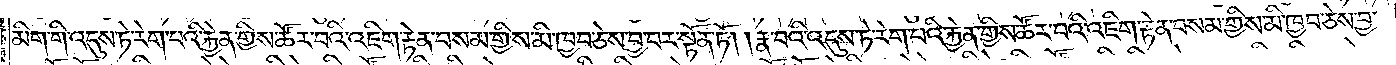མིག་གི་འདུས་ཏེ་རེག་པའི་རྐྱེན་གྱིས་ཚོར་བའི་འཇིག་རྟེན་བསམ་གྱིས་མི་ཁྱབ་ཅེས་བྱ་བར་སྟོན་ཏོ། །རྣ་བའི་འདུས་ཏེ་རེག་པའི་རྐྱེན་གྱིས་ཚོར་བའི་འཇིག་རྟེན་བསམ་གྱིས་མི་ཁྱབ་ཅེས་བྱ་
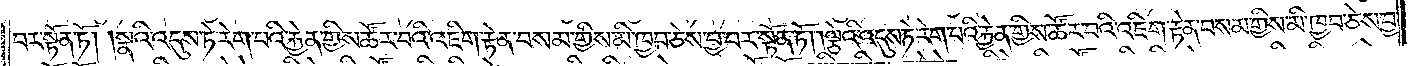བར་སྟོན་ཏོ། །སྣའི་འདུས་ཏེ་རེག་པའི་རྐྱེན་གྱིས་ཚོར་བའི་འཇིག་རྟེན་བསམ་གྱིས་མི་ཁྱབ་ཅེས་བྱ་བར་སྟོན་ཏོ། །ལྕེའི་འདུས་ཏེ་རེག་པའི་རྐྱེན་གྱིས་ཚོར་བའི་འཇིག་རྟེན་བསམ་གྱིས་མི་ཁྱབ་ཅེས་བྱ་
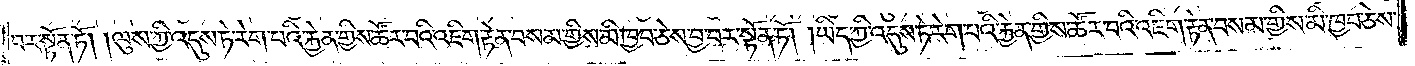བར་སྟོན་ཏོ། །ལུས་ཀྱི་འདུས་ཏེ་རེག་པའི་རྐྱེན་གྱིས་ཚོར་བའི་འཇིག་རྟེན་བསམ་གྱིས་མི་ཁྱབ་ཅེས་བྱ་བར་སྟོན་ཏོ། །ཡིད་ཀྱི་འདུས་ཏེ་རེག་པའི་རྐྱེན་གྱིས་ཚོར་བའི་འཇིག་རྟེན་བསམ་གྱིས་མི་ཁྱབ་ཅེས་
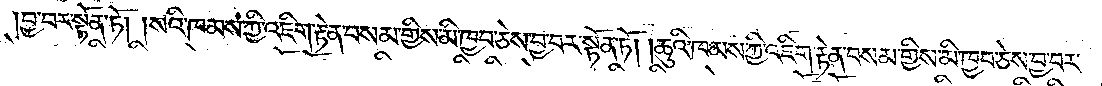བྱ་བར་སྟོན་ཏོ། །སའི་ཁམས་ཀྱི་འཇིག་རྟེན་བསམ་གྱིས་མི་ཁྱབ་ཅེས་བྱ་བར་སྟོན་ཏོ། །ཆུའི་ཁམས་ཀྱི་འཇིག་རྟེན་བསམ་གྱིས་མི་ཁྱབ་ཅེས་བྱ་བར་
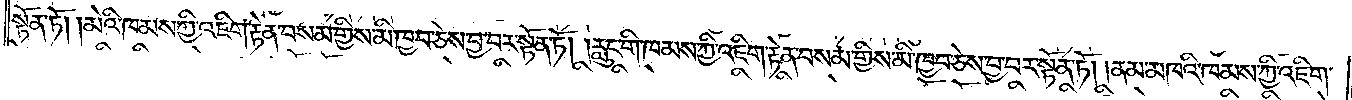སྟོན་ཏོ། །མེའི་ཁམས་ཀྱི་འཇིག་རྟེན་བསམ་གྱིས་མི་ཁྱབ་ཅེས་བྱ་བར་སྟོན་ཏོ། །རླུང་གི་ཁམས་ཀྱི་འཇིག་རྟེན་བསམ་གྱིས་མི་ཁྱབ་ཅེས་བྱ་བར་སྟོན་ཏོ། །ནམ་མཁའི་ཁམས་ཀྱི་འཇིག་
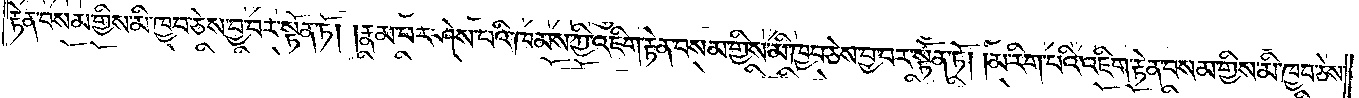རྟེན་བསམ་གྱིས་མི་ཁྱབ་ཅེས་བྱ་བར་སྟོན་ཏོ། །རྣམ་པར་ཤེས་པའི་ཁམས་ཀྱི་འཇིག་རྟེན་བསམ་གྱིས་མི་ཁྱབ་ཅེས་བྱ་བར་སྟོན་ཏོ། །མ་རིག་པའི་འཇིག་རྟེན་བསམ་གྱིས་མི་ཁྱབ་ཅེས་
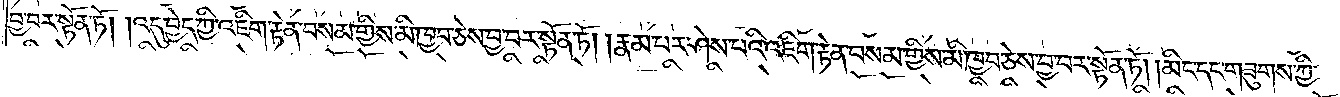བྱ་བར་སྟོན་ཏོ། །འདུ་བྱེད་ཀྱི་འཇིག་རྟེན་བསམ་གྱིས་མི་ཁྱབ་ཅེས་བྱ་བར་སྟོན་ཏོ། །རྣམ་པར་ཤེས་པའི་འཇིག་རྟེན་བསམ་གྱིས་མི་ཁྱབ་ཅེས་བྱ་བར་སྟོན་ཏོ། །མིང་དང་གཟུགས་ཀྱི་
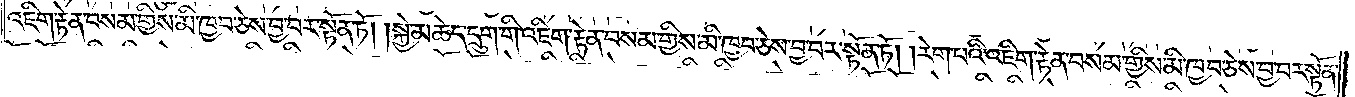འཇིག་རྟེན་བསམ་གྱིས་མི་ཁྱབ་ཅེས་བྱ་བར་སྟོན་ཏོ། །སྐྱེ་མཆེད་དྲུག་གི་འཇིག་རྟེན་བསམ་གྱིས་མི་ཁྱབ་ཅེས་བྱ་བར་སྟོན་ཏོ། །རེག་པའི་འཇིག་རྟེན་བསམ་གྱིས་མི་ཁྱབ་ཅེས་བྱ་བར་སྟོན་
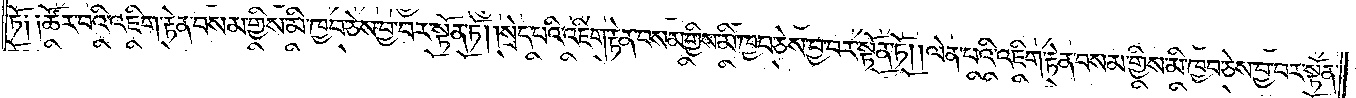ཏོ༑ ༑ཚོར་བའི་འཇིག་རྟེན་བསམ་གྱིས་མི་ཁྱབ་ཅེས་བྱ་བར་སྟོན་ཏོ། །སྲེད་པའི་འཇིག་རྟེན་བསམ་གྱིས་མི་ཁྱབ་ཅེས་བྱ་བར་སྟོན་ཏོ། །ལེན་པའི་འཇིག་རྟེན་བསམ་གྱིས་མི་ཁྱབ་ཅེས་བྱ་བར་སྟོན་
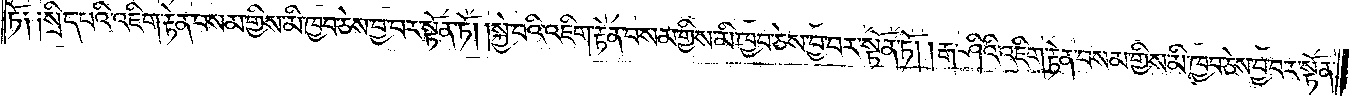ཏོ༑ ༑སྲིད་པའི་འཇིག་རྟེན་བསམ་གྱིས་མི་ཁྱབ་ཅེས་བྱ་བར་སྟོན་ཏོ། །སྐྱེ་བའི་འཇིག་རྟེན་བསམ་གྱིས་མི་ཁྱབ་ཅེས་བྱ་བར་སྟོན་ཏོ། །རྒ་ཤིའི་འཇིག་རྟེན་བསམ་གྱིས་མི་ཁྱབ་ཅེས་བྱ་བར་སྟོན་
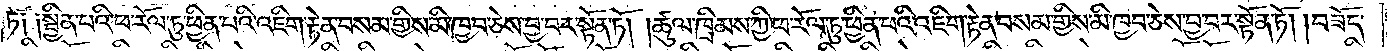ཏོ༑ ༑སྦྱིན་པའི་ཕ་རོལ་ཏུ་ཕྱིན་པའི་འཇིག་རྟེན་བསམ་གྱིས་མི་ཁྱབ་ཅེས་བྱ་བར་སྟོན་ཏོ། །ཚུལ་ཁྲིམས་ཀྱི་ཕ་རོལ་ཏུ་ཕྱིན་པའི་འཇིག་རྟེན་བསམ་གྱིས་མི་ཁྱབ་ཅེས་བྱ་བར་སྟོན་ཏོ། །བཟོད་
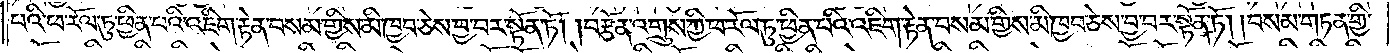པའི་ཕ་རོལ་ཏུ་ཕྱིན་པའི་འཇིག་རྟེན་བསམ་གྱིས་མི་ཁྱབ་ཅེས་བྱ་བར་སྟོན་ཏོ། །བརྩོན་འགྲུས་ཀྱི་ཕ་རོལ་ཏུ་ཕྱིན་པའི་འཇིག་རྟེན་བསམ་གྱིས་མི་ཁྱབ་ཅེས་བྱ་བར་སྟོན་ཏོ། །བསམ་གཏན་གྱི་
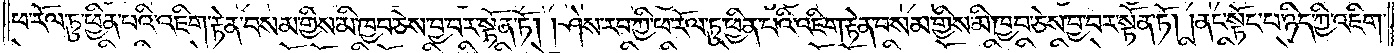ཕ་རོལ་ཏུ་ཕྱིན་པའི་འཇིག་རྟེན་བསམ་གྱིས་མི་ཁྱབ་ཅེས་བྱ་བར་སྟོན་ཏོ། །ཤེས་རབ་ཀྱི་ཕ་རོལ་ཏུ་ཕྱིན་པའི་འཇིག་རྟེན་བསམ་གྱིས་མི་ཁྱབ་ཅེས་བྱ་བར་སྟོན་ཏོ། །ནང་སྟོང་པ་ཉིད་ཀྱི་འཇིག་
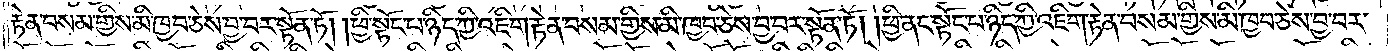རྟེན་བསམ་གྱིས་མི་ཁྱབ་ཅེས་བྱ་བར་སྟོན་ཏོ། །ཕྱི་སྟོང་པ་ཉིད་ཀྱི་འཇིག་རྟེན་བསམ་གྱིས་མི་ཁྱབ་ཅེས་བྱ་བར་སྟོན་ཏོ། །ཕྱི་ནང་སྟོང་པ་ཉིད་ཀྱི་འཇིག་རྟེན་བསམ་གྱིས་མི་ཁྱབ་ཅེས་བྱ་བར་
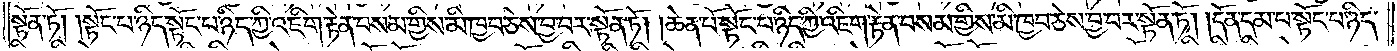སྟོན་ཏོ། །སྟོང་པ་ཉིད་སྟོང་པ་ཉིད་ཀྱི་འཇིག་རྟེན་བསམ་གྱིས་མི་ཁྱབ་ཅེས་བྱ་བར་སྟོན་ཏོ། །ཆེན་པོ་སྟོང་པ་ཉིད་ཀྱི་འཇིག་རྟེན་བསམ་གྱིས་མི་ཁྱབ་ཅེས་བྱ་བར་སྟོན་ཏོ། །དོན་དམ་པ་སྟོང་པ་ཉིད་
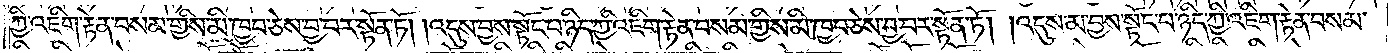ཀྱི་འཇིག་རྟེན་བསམ་གྱིས་མི་ཁྱབ་ཅེས་བྱ་བར་སྟོན་ཏོ། །འདུས་བྱས་སྟོང་པ་ཉིད་ཀྱི་འཇིག་རྟེན་བསམ་གྱིས་མི་ཁྱབ་ཅེས་བྱ་བར་སྟོན་ཏོ། །འདུས་མ་བྱས་སྟོང་པ་ཉིད་ཀྱི་འཇིག་རྟེན་བསམ་
